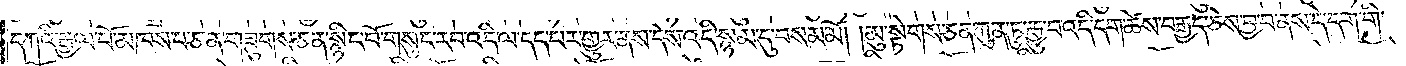དཀའི་རྒྱལ་པོ་མཁས་པ་ཅན་གཟུགས་ཅན་སྙིང་པོ་གསུང་རབ་འདི་ལ་དད་པར་གྱུར་ནས་དེས་འདི་སྙམ་དུ་བསམ་མོ། །མུ་སྟེགས་ཅན་ཀུན་ཏུ་རྒྱུ་བ་འདི་དག་ཚེས་བརྒྱད་ཅེས་བྱ་བ་ནས་དེ་དག་གི་
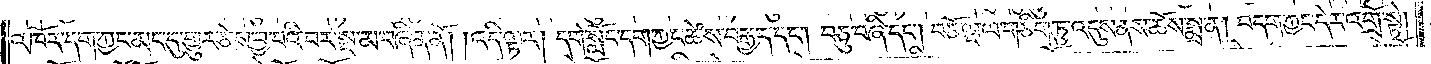འཁོར་དག་ཀྱང་མང་དུ་གྱུར་ཅེས་བྱ་བའི་བར་སྔ་མ་བཞིན་ནོ། །འདི་ལྟར། དགེ་སློང་དག་ཀྱང་ཚེས་བརྒྱད་དང༌། བཅུ་བཞི་དང༌། བཅོ་ལྔ་ལ་གཅིག་ཏུ་འདུས་ནས་ཆོས་སྨྲ་ན། བདག་ཀྱང་དེར་འགྲོ་སྟེ།
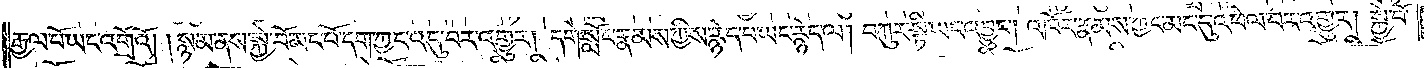རྒྱལ་པོ་ཡང་འགྲོའོ། །སྙམ་ནས་སྐྱེ་བོ་མང་པོ་དག་ཀྱང་འདུ་བར་འགྱུར། དགེ་སློང་རྣམས་ཀྱིས་རྙེད་པ་ཡང་རྙེད་ལ། བཀུར་སྟི་ཡང་འབྱུང༌། འཁོར་རྣམས་ཀྱང་མང་དུ་འཕེལ་བར་འགྱུར། སྐྱེ་བོ་
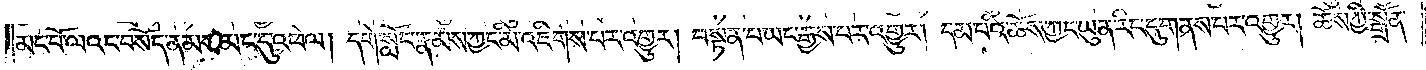མང་པོ་ལའང་བསོད་ནམས་མང་དུ་འཕེལ། དགེ་སློང་རྣམས་ཀྱང་མི་འཇིགས་པར་འགྱུར། བསྟན་པ་ཡང་རྒྱས་པར་འགྱུར། དམ་པའི་ཆོས་ཀྱང་ཡུན་རིང་དུ་གནས་པར་འགྱུར། ཆོས་ཀྱི་སྒྲོན་
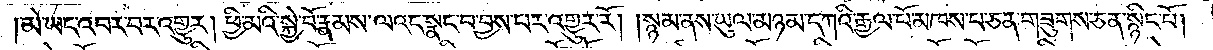མེ་ཡང་འབར་བར་འགྱུར། ཕྱི་མའི་སྐྱེ་བོ་རྣམས་ལའང་སྣང་བ་བྱས་པར་འགྱུར་རོ། །སྙམ་ནས་ཡུལ་མཉམ་དཀའི་རྒྱལ་པོ་མཁས་པ་ཅན་གཟུགས་ཅན་སྙིང་པོ།
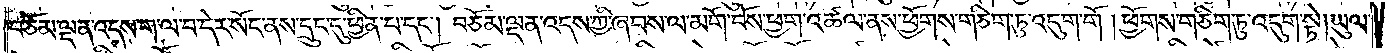བཅོམ་ལྡན་འདས་ག་ལ་བ་དེར་སོང་ནས་དྲུང་དུ་ཕྱིན་པ་དང༌། བཅོམ་ལྡན་འདས་ཀྱི་ཞབས་ལ་མགོ་བོས་ཕྱག་འཚལ་ནས་ཕྱོགས་གཅིག་ཏུ་འདུག་གོ །ཕྱོགས་གཅིག་ཏུ་འདུག་སྟེ། ཡུལ་
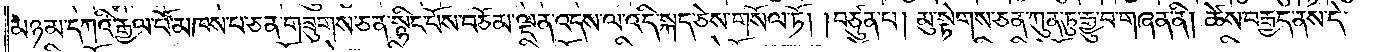མཉམ་དཀའི་རྒྱལ་པོ་མཁས་པ་ཅན་གཟུགས་ཅན་སྙིང་པོས་བཅོམ་ལྡན་འདས་ལ་འདི་སྐད་ཅེས་གསོལ་ཏོ། །བཙུན་པ། མུ་སྟེགས་ཅན་ཀུན་ཏུ་རྒྱུ་བ་གཞན་ནི། ཚེས་བརྒྱད་ནས་དེ་
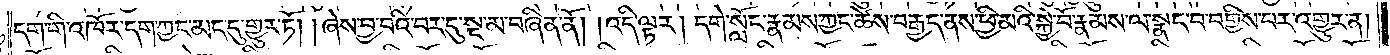དག་གི་འཁོར་དག་ཀྱང་མང་དུ་གྱུར་ཏོ། །ཞེས་བྱ་བའི་བར་དུ་སྔ་མ་བཞིན་ནོ། །འདི་ལྟར། དགེ་སློང་རྣམས་ཀྱང་ཚེས་བརྒྱད་ནས་ཕྱི་མའི་སྐྱེ་བོ་རྣམས་ལ་སྣང་བ་བགྱིས་པར་འགྱུར་ན།
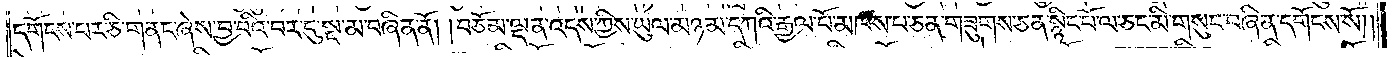དགོངས་པར་ཅི་གནང་ཞེས་བྱ་བའི་བར་དུ་སྔ་མ་བཞིན་ནོ། །བཅོམ་ལྡན་འདས་ཀྱིས་ཡུལ་མཉམ་དཀའི་རྒྱལ་པོ་མཁས་པ་ཅན་གཟུགས་ཅན་སྙིང་པོ་ལ་ཅང་མི་གསུང་བཞིན་དགོངས་སོ༎
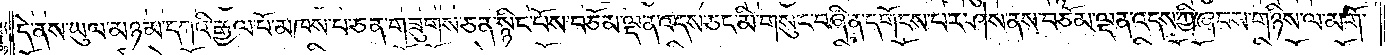དེ་ནས་ཡུལ་མཉམ་དཀའི་རྒྱལ་པོ་མཁས་པ་ཅན་གཟུགས་ཅན་སྙིང་པོས་བཅོམ་ལྡན་འདས་ཅང་མི་གསུང་བཞིན་དགོངས་པར་ཤེས་ནས་བཅོམ་ལྡན་འདས་ཀྱི་ཞབས་གཉིས་ལ་མགོ་
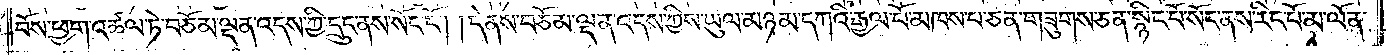བོས་ཕྱག་འཚལ་ཏེ་བཅོམ་ལྡན་འདས་ཀྱི་དྲུང་ནས་སོང་ངོ༌། །དེ་ནས་བཅོམ་ལྡན་འདས་ཀྱིས་ཡུལ་མཉམ་དཀའི་རྒྱལ་པོ་མཁས་པ་ཅན་གཟུགས་ཅན་སྙིང་པོ་སོང་ནས་རིང་པོ་མ་ལོན་
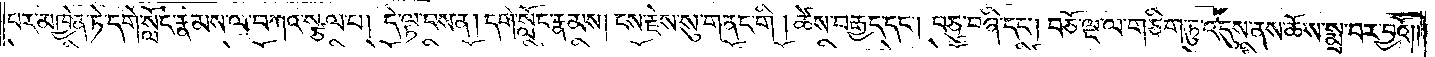པར་མཁྱེན་ཏེ་དགེ་སློང་རྣམས་ལ་བཀའ་སྩལ་པ། དེ་ལྟ་བས་ན། དགེ་སློང་རྣམས། ངས་རྗེས་སུ་གནང་གི །ཚེས་བརྒྱད་དང༌། བཅུ་བཞི་དང༌། བཅོ་ལྔ་ལ་གཅིག་ཏུ་འདུས་ནས་ཆོས་སྨྲ་བར་བྱའོ༎
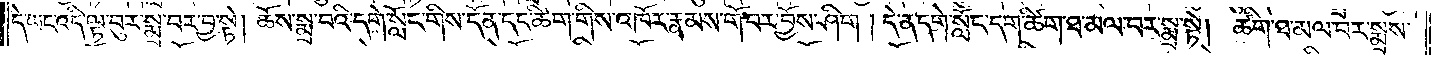དེ་ཡང་འདི་ལྟ་བུར་སྨྲ་བར་བྱ་སྟེ། ཆོས་སྨྲ་བའི་དགེ་སློང་གིས་དོན་དང་ཚིག་གིས་འཁོར་རྣམས་གོ་བར་བྱོས་ཤིག །དེ་ན་དགེ་སློང་དག་ཚིག་ཐ་མལ་བར་སྨྲ་སྟེ། ཚིག་ཐ་མལ་བར་སྨྲས་
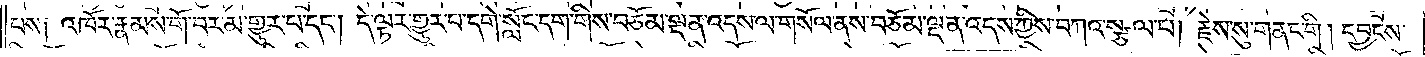པས༑ འཁོར་རྣམས་གོ་བར་མ་གྱུར་པ་དང༌། དེ་ལྟར་གྱུར་པ་དགེ་སློང་དག་གིས་བཅོམ་ལྡན་འདས་ལ་གསོལ་ནས་བཅོམ་ལྡན་འདས་ཀྱིས་བཀའ་སྩལ་པ། རྗེས་སུ་གནང་གི། དབྱངས་
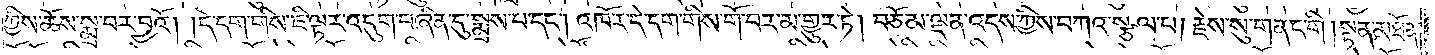ཀྱིས་ཆོས་སྨྲ་བར་བྱའོ། །དེ་དག་གིས་ཇི་ལྟར་འདུག་བཞིན་དུ་སྨྲས་པ་དང༌། འཁོར་དེ་དག་གིས་གོ་བར་མ་གྱུར་ཏེ། བཅོམ་ལྡན་འདས་ཀྱིས་བཀའ་སྩལ་པ། རྗེས་སུ་གནང་གི །སྟན་མཐོན་
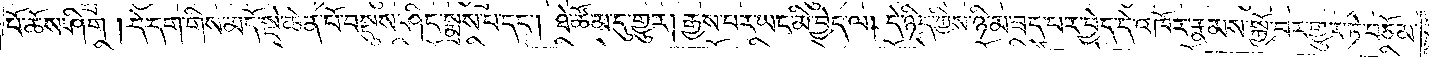པོ་ཆོས་ཤིག །དེ་དག་གིས་མདོ་སྡེ་ཆེན་པོ་བསྡུས་ཤིང་སྨྲས་པ་དང༌། ཐེ་ཚོམ་དུ་གྱུར། རྒྱས་པར་ཡང་མི་བྱེད་ལ། དེ་ཉིད་ཀྱིས་ཉི་མ་ཟད་པར་བྱེད་དེ་འཁོར་རྣམས་སྐྱོ་བར་གྱུར་ཏེ་བཅོམ་
